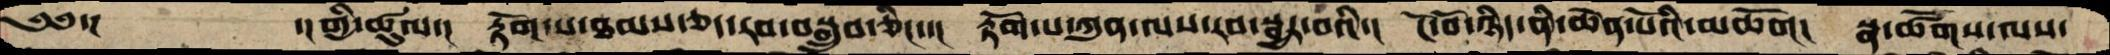༄༅་།       ་།གྱི་ཚུལ་།  རྟོག་པ་ཐམས་ཅད་རབ་བསྒྲུབ་ཅིང་།   རྟོག་པ་ཀུན་ལས་རབ་སྦྱར་བའི་།  ངོ་བོ་ཉིད་ནི་ཆེན་པོའི་མཆོག།  སྣ་ཚོགས་ལས་
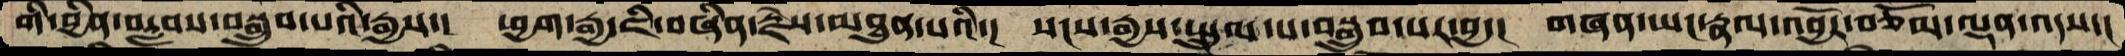གི་བྱིན་བརླབས་བསྒྲུབ་པའི་རྒྱས་།  ཕྱག་རྒྱ་ཇི་བཞིན་རྗེས་མཐུན་པའི་།  སངས་རྒྱས་སྤྲུལ་པ་བསྒྲུབ་པར་བྱ་།  གཞན་ཡང་རྣལ་འབྱོར་བཅོམ་ལྡན་འདས་།
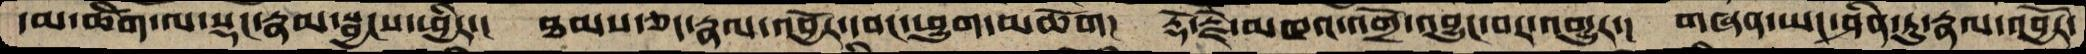དམ་ཚིག་ལ་སྡང་རྣམ་སྦྱངས་ཕྱིར་།  ཐམས་ཅད་རྣལ་འབྱོར་དབང་ཕྱུག་མཆོག།  རྡོ་རྗེ་མཁའ་འགྲོ་འབྱུང་བར་འགྱུར་།  གཞན་ཡང་ཤིན་ཏུ་རྣལ་འབྱོར་
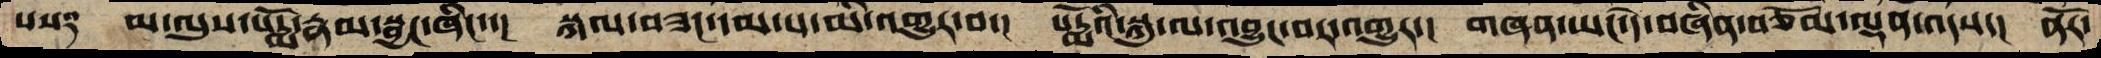པས༑   མ་ལུས་པདྨོ་རྣམ་སྦྱངས་ཞིང་་།  སྐལ་བཟང་དམ་པ་མི་འགྱུར་བ་།  པདྨོའི་སྐུ་ལ་འབྱུང་བར་འགྱུར་།  གཞན་ཡང་དེ་བཞིན་བཅོམ་ལྡན་འདས་།  ནོར་
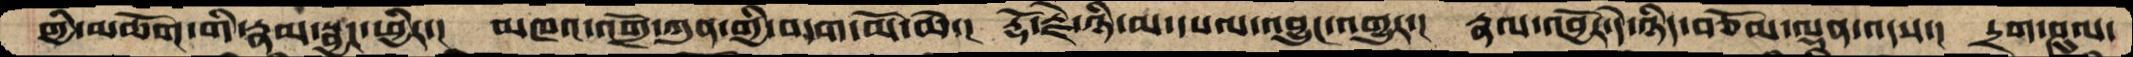གྱི་མཆོག་གི་རྣམ་སྦྱང་ཕྱིར་།  མཁའ་འགྲོ་ཀུན་གྱི་བདག་མོ་ཆེ།  རྡོ་རྗེ་ཉི་མ་དཔལ་འབྱུང་འགྱུར་།  རྣལ་འབྱོར་དེ་ཉིད་བཅོམ་ལྡན་འདས་།  དྲག་ཤུལ་
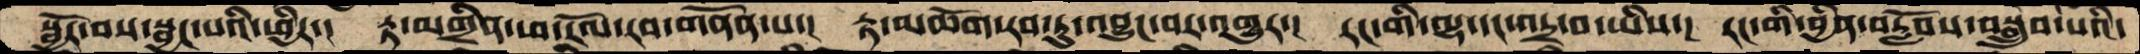སྦྱོར་བས་སྦྱང་པའི་ཕྱིར་།   རྟ་མགྲིན་ཕ་རོལ་རབ་གནོན་པ་།  རྟ་མཆོག་རབ་ཏུ་འབྱུང་བར་འགྱུར་།  རང་གི་ལྷ་དང་འདྲ་བ་ཡིས་།  རང་གི་བྱིན་བརློབས་བསྒྲུབ་པའི་
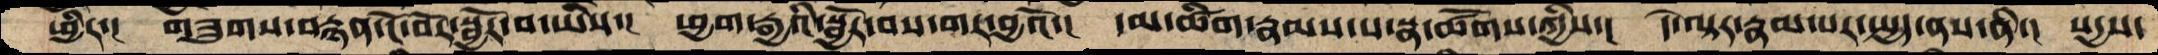ཕྱིར་།   གཟུགས་བརྙན་ངོ་བོ་སྦྱོར་བ་ཡིས་།  ཕྱག་རྒྱའི་སྦྱོར་བས་གར་བྱའོ་།  དམ་ཚིག་རྣམས་པ་སྣ་ཚོགས་ཀྱིས་།  དེ་ལྟར་རྣམ་པར་སྤྱད་ནས་ནི་།  སདྱས་
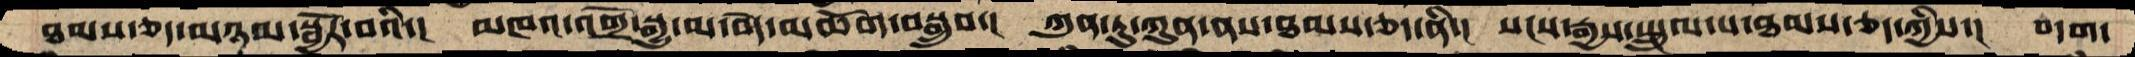ཐམས་ཅད་མཉམ་སྦྱོར་བའི་།  མཁའ་འགྲོ་སྒྱུ་མ་བདེ་མཆོག་བསྒྲུབ་།  ཀུན་ཏུ་ཀུན་ནས་ཐམས་ཅད་ནི་།  སངས་རྒྱས་སྤྲུལ་པ་ཐམས་ཅད་ཀྱིས་།  བདག་
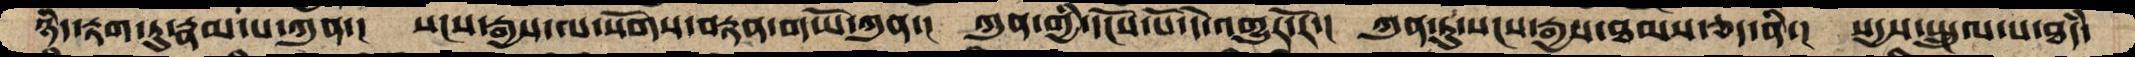ཉིད་རྟག་ཏུ་རྣམ་པ་ཀུན་།  སངས་རྒྱས་ལ་སོགས་བརྟན་གཡོ་ཀུན་།  ཀུན་གྱི་དངོས་པོ་དེ་འགྱུར་རོ་།  ཀུན་ཏུ་སངས་རྒྱས་ཐམས་ཅད་ནི་།  སདྱས་སྤྲུལ་པ་ཐཾད་
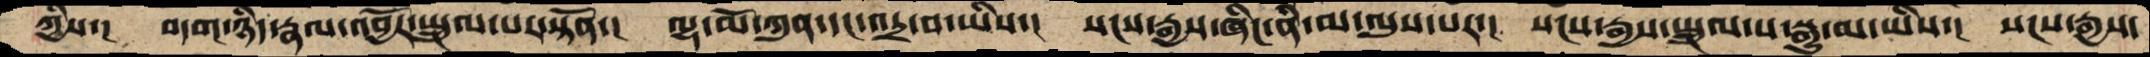ཀྱིས་།  བདག་ཉིད་རྣལ་འབྱོར་སྤྲུལ་པར་སྟོན་།   ལྷ་མོ་ཀུན་དང་འདྲ་བ་ཡིས་།  སངས་རྒྱས་ཞིང་ནི་མ་ལུས་པར་།  སངས་རྒྱས་སྤྲུལ་པ་སྒྱུ་མ་ཡིས་།  སངས་རྒྱས་
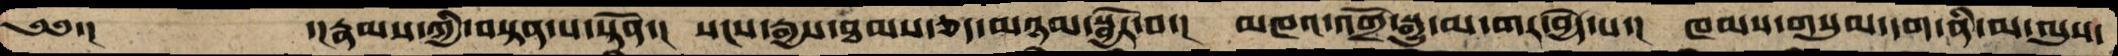༄༅་།      ་།རྣམས་ཀྱི་བསྟན་པ་སྟོན་།  སངས་རྒྱས་ཐམས་ཅད་མཉམ་སྦྱོར་བ་།  མཁའ་འགྲོ་སྒྱུ་མ་གར་བྱེད་པ་།  ཁམས་གསུམ་དག་ནི་མ་ལུས་
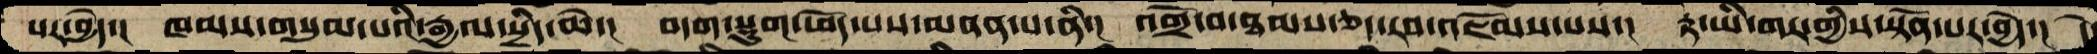པར་བྱེད་།  ཁམས་གསུམ་པའི་རྒྱལ་སྲིད་ཆེ་།  བདག་སྡུག་ཕོད་པས་མནན་པ་ནི་།  འགྲོ་བ་ཐམས་ཅད་རབ་འཇོམས་པས་།  རྟ་ཡི་གར་གྱིས་སྟོན་པར་བྱེ་།  དེ་
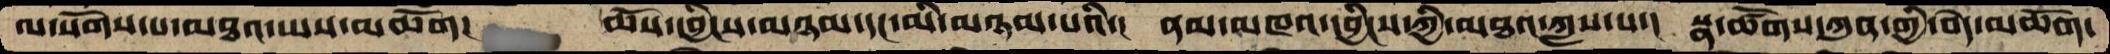ལ་སོགས་པ་མཐའ་ཡས་མཆོག།  ཆོས་དབྱིངས་མཉམདང་མི་མཉམཔའི་།  ནམ་མཁའ་དབྱིངས་ཀྱི་མཐའ་ཀླས་པ་།  སྣ་ཚོགས་ཀུན་གྱི་བདེ་མཆོག་
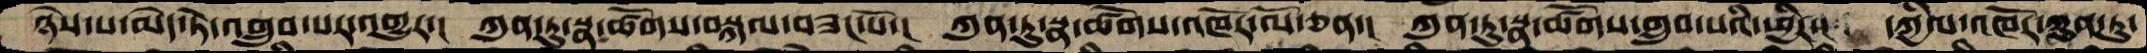ཉེས་པ་མེད་ཏེ་འགྲུབ་པར་འགྱུར་།   ཀུན་ཏུ་སྣ་ཚོགས་བསྐལ་བཟང་པོ་།  ཀུན་ཏུ་སྣ་ཚོགས་འཁོར་ལོ་ཅན་།  ཀུན་ཏུ་སྣ་ཚོགས་གྲུབ་པའི་ཕྱིར་།  དཀྱིལ་འཁོར་ཀུན་ཏུ་
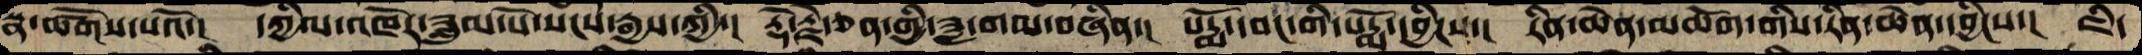སྣ་ཚོགས་པའོ་།   དཀྱིལ་འཁོར་ཟླུམ་པོ་སངས་རྒྱས་ཀྱི་།  རྡོ་རྗེ་ཅན་གྱི་ཟླ་གམ་བཞིན་།  པདྨོ་དབང་གི་པདྨོ་དབྱིངས་།  རིན་ཆེན་མཆོག་གིས་རིན་ཆེན་དབྱིངས་།  ཇི་
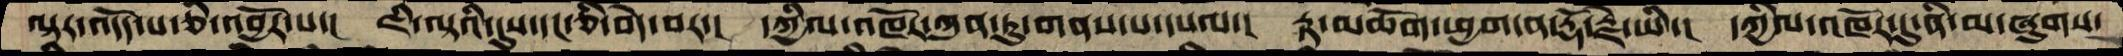ལྟར་འདོད་པ་ཅི་འབྱོར་པ་།  ཇི་ལྟའི་དུས་དང་ཅི་བདེ་བར་།  དཀྱིལ་འཁོར་ཀུན་ཏུ་གནས་པ་དཔལ་།  རྟ་མཆོག་ཕྱག་ན་རྡོ་རྗེ་ཡི་།  དཀྱིལ་འཁོར་དུ་ནི་མ་ཞུགས་
